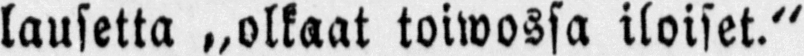lausetta „olkaat toiwossa iloiset."
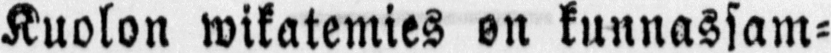Kuolon wikatemies on kunnassam-
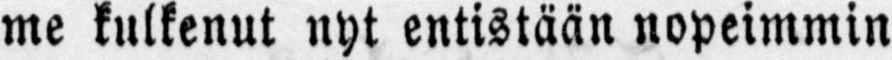me kulkenut nyt entistään nopeimmin
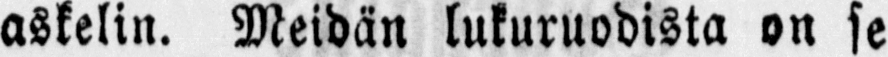askelin. Meidän lukuruodista on se
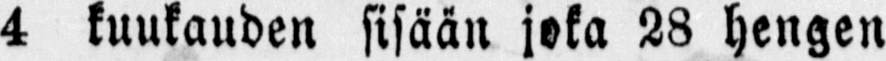4 kuukauden sisään joka 28 hengen
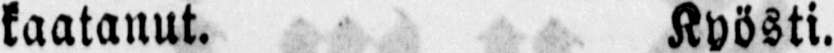kaatanut. Kyösti.
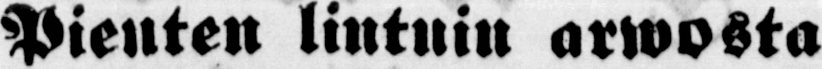Pienten lintuin arwosta
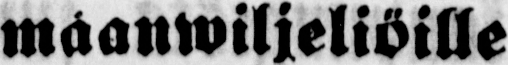maanwiljeliöille
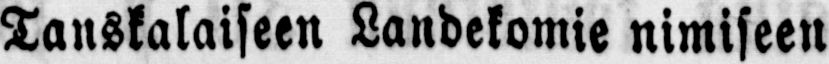Tanskalaiseen Landekomie nimiseen
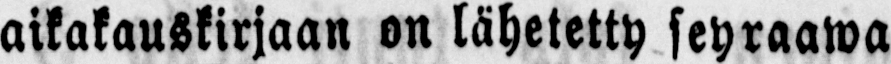aikakauskirjaan on lähetetty seyraawa
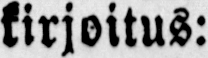kirjoitus:
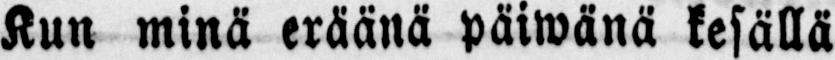Kun minä eräänä päiwänä kesällä
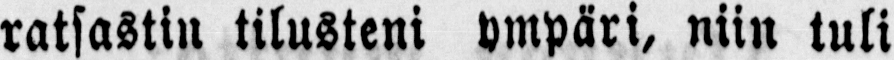ratsastin tilusteni ympäri, niin tuli
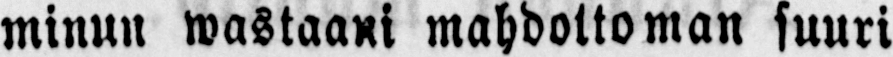minun wastaani mahdottoman suuri
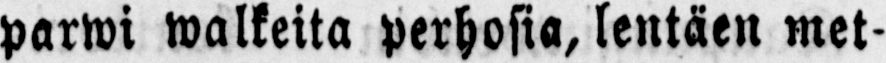parwi walkeita perhosia, lentäen met-
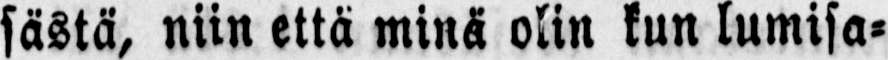sästä, niin että minä olin kun lumisa-
